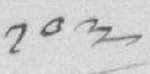༡༠༣
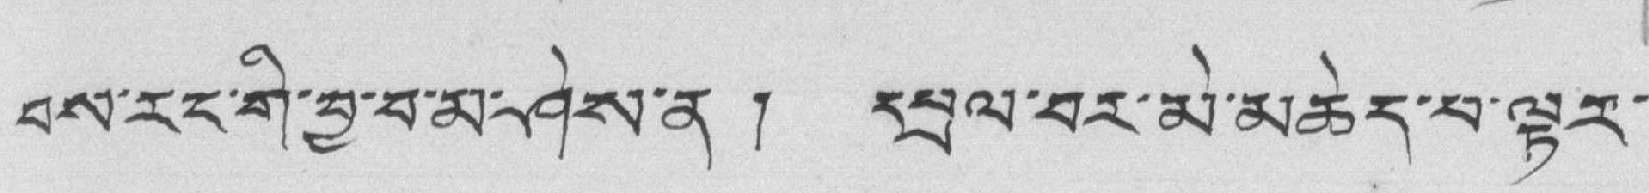བས་རང་གི་བྱ་བ་མ་ཤེས་ན། དཔྲལ་བར་མི་མཆེད་པ་ལྟར་
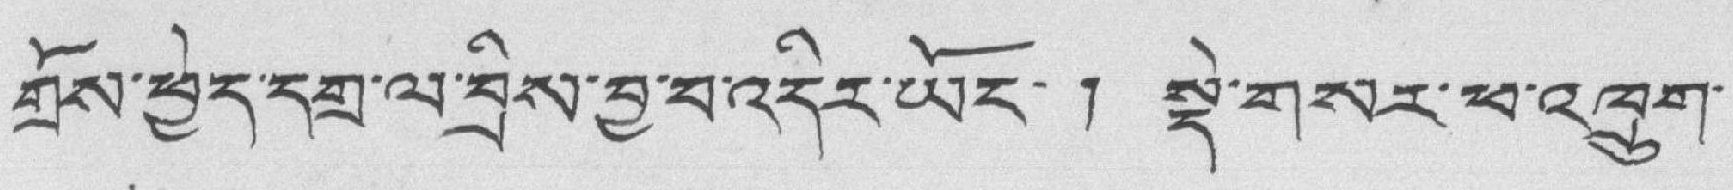གྲོས་ཕྱེད་དགྲ་ལ་བྲིས་བྱ་བ་འདིར་ཡོང་། སྡེ་གསར་ཕ་འཁྲུག་
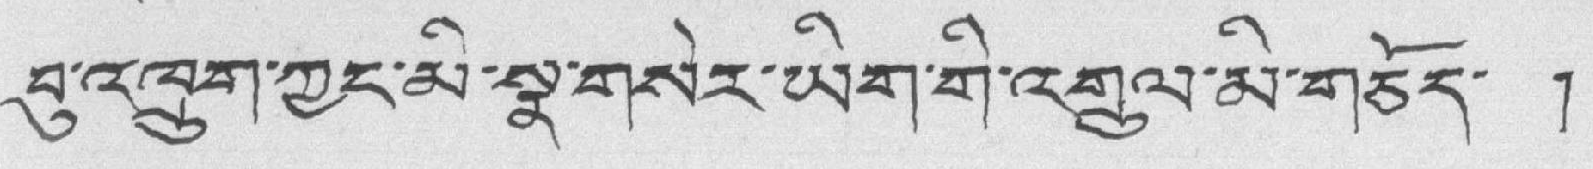བུ་འཁྲུག་ཀྱང་མི་སྣ་གསེར་ཡིག་གི་འགྲུལ་མི་གཅོད་ །
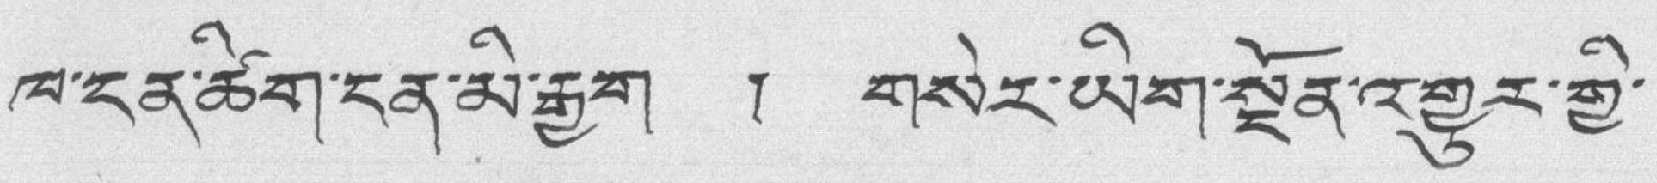ཁ་ངན་ཚིག་ངན་མི་རྒྱག ། གསེར་ཡིག་སྔོན་འགྱུར་གྱི་
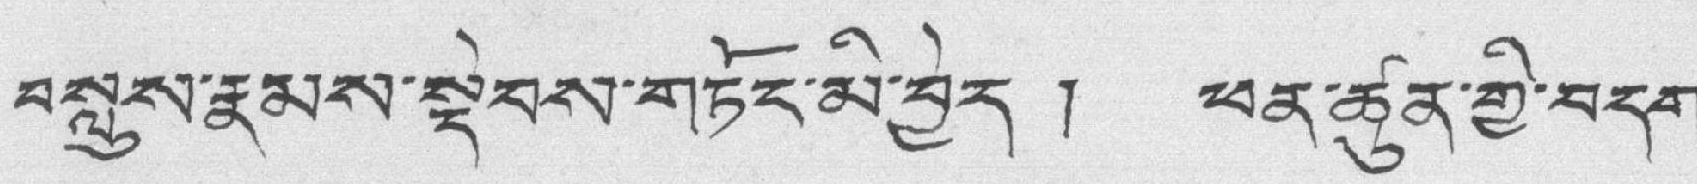བསླུས་རྣམས་སྡེབས་གཏོང་མི་བྱེད ། ཕན་ཚུན་གྱི་བདག་
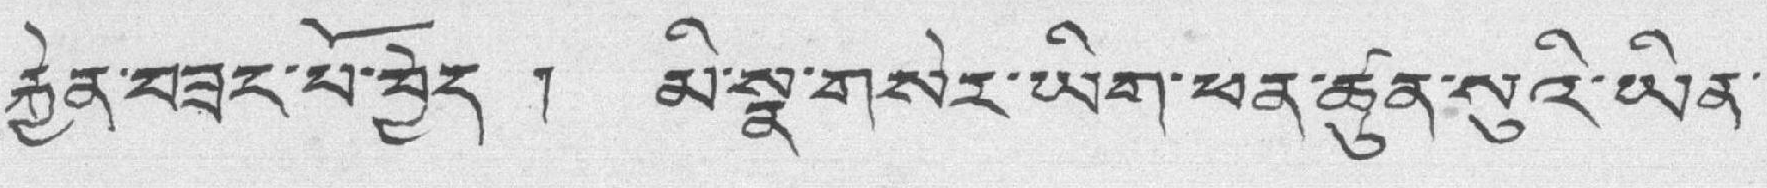རྐྱེན་བཟང་པོ་བྱེད ། མི་སྣ་གསེར་ཡིག་ཕན་ཚུན་སུའི་ཡིན་
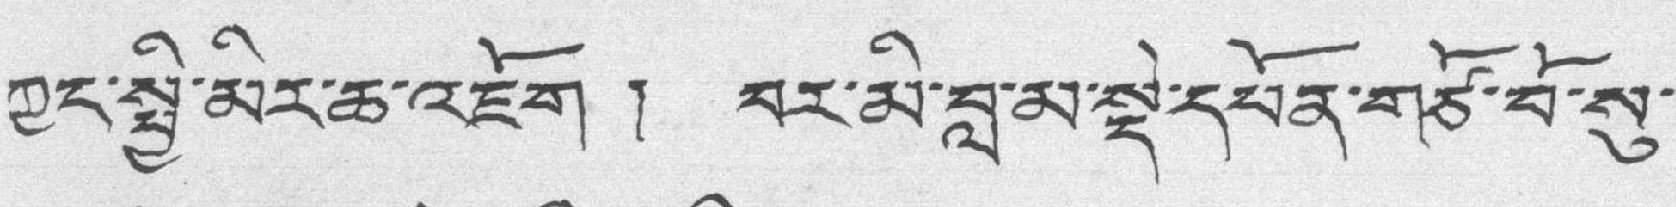ཀྱད་སྤྱི་མིར་ཆ་འཇོག ། བར་མི་བླ་མ་སྡེ་དཔོན་གཙོ་བོ་སུ་
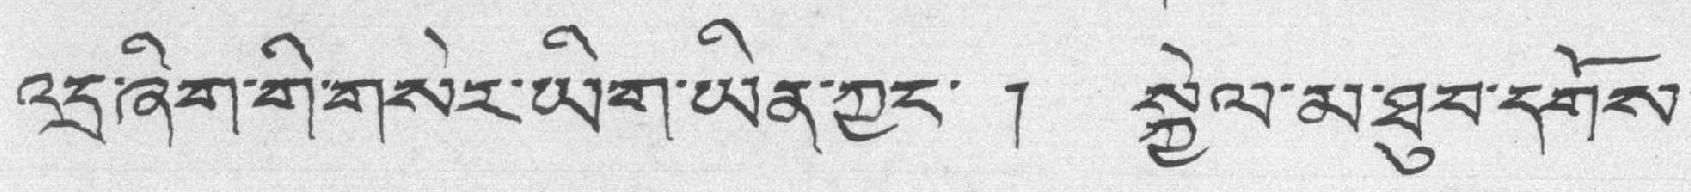འདྲ་ཞིག་གི་གསེར་ཡིག་ཡིན་ཀྱང་ ། སྐྱེལ་མ་ཐུབ་དགོས་
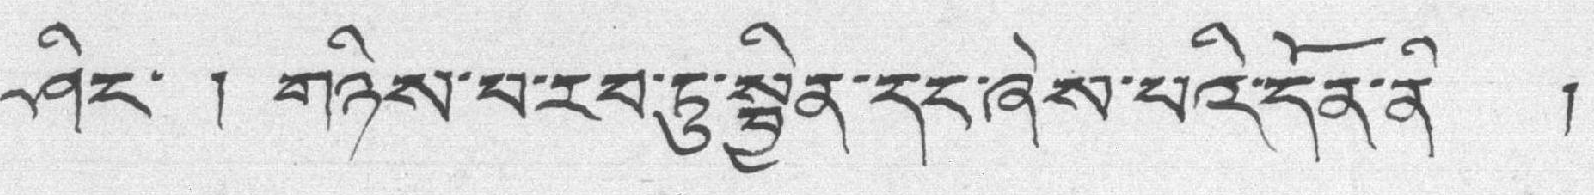ཤིང་ ། གཉིས་པ་རབ་ཏུ་སྦྱིན་དང་ཞེས་པའི་དོན་ནི །
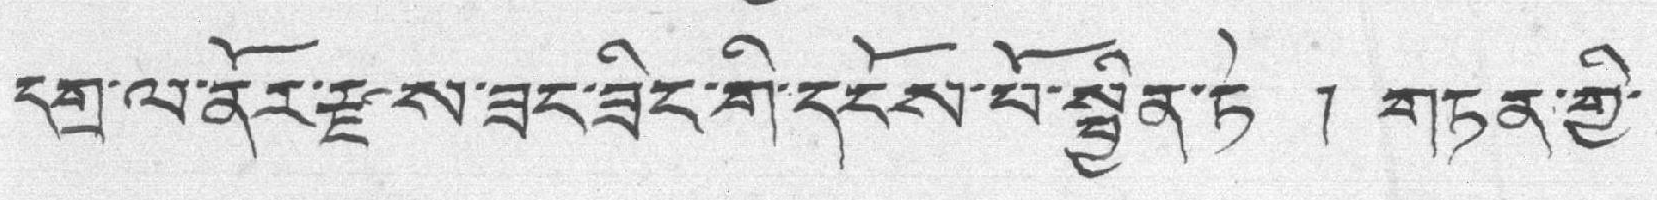དགྲ་ལ་ནོར་རྫས་ཟང་ཟིང་གི་དངོས་པོ་སྦྱིན་ཏེ ། གཏན་གྱི་
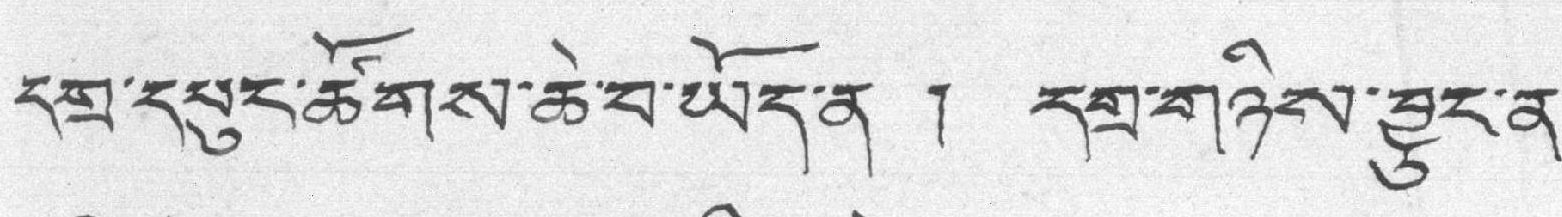དགྲ་དཔུང་ཚོགས་ཆེ་བ་ཡོད་ན ། དགྲ་གཉིས་བྱུང་ན་
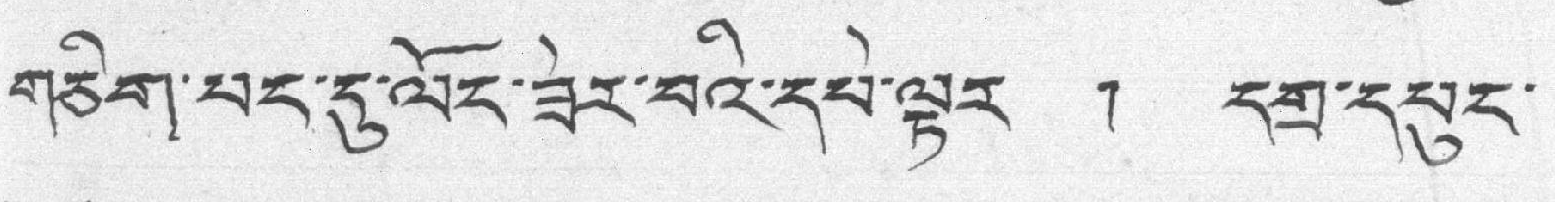གཅིག་པང་དུ་ལོང་ཟེར་བའི་དཔེ་ལྟར ། དགྲ་དཔུང་
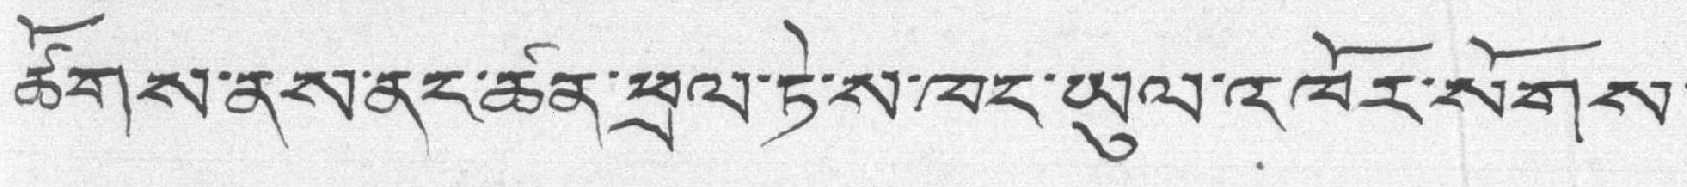ཚོགས་ནས་ནང་ཚན་ཕྲལ་ཏེ་ས་ཁང་ཡུལ་འཁོར་སོགས་
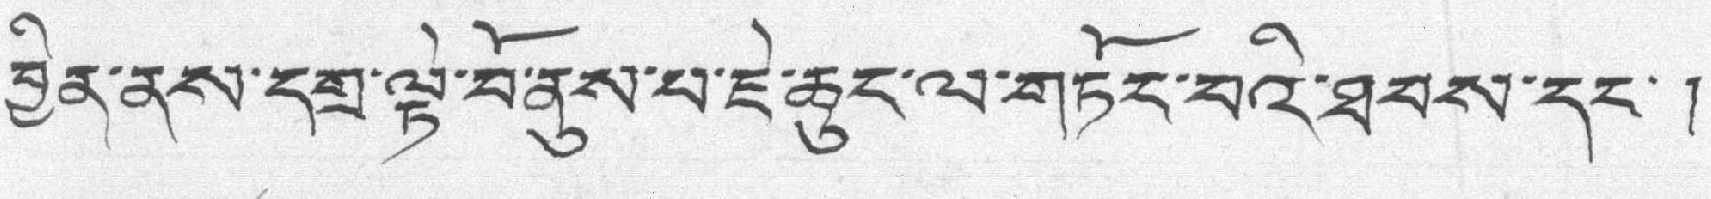བྱིན་ནས་དགྲ་ལྟེ་བོ་ནུས་པ་ཇེ་ཆུང་ལ་གཏོང་བའི་ཐབས་དང་ །
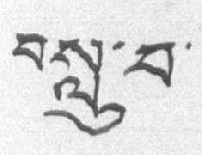བསླུ་བ་
